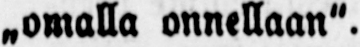„omalla onnellaan".
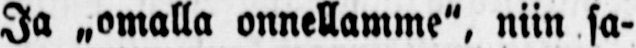Ja „omalla onnellamme", niin sa-
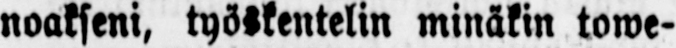noakseni, työskentelin minäkin towe-
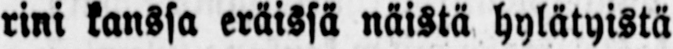rini kanssa eräissä näistä hylätyistä
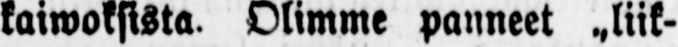kaiwoksista. Olimme panneet „liik-
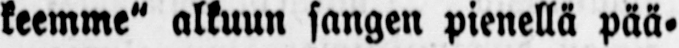keemme" alkuun sangen pienellä pää-
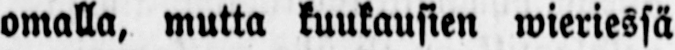omalla, mutta kuukausien wieriessä
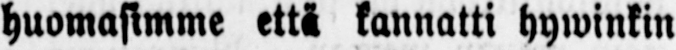huomasimme että kannatti hywinkin
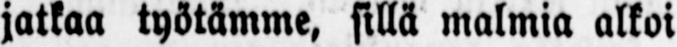jatkaa työtämme, sillä malmia alkoi
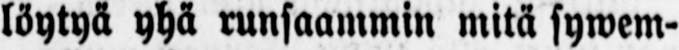löytyä yhä runsaammin mitä sywem-
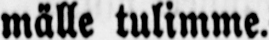mälle tulimme.
